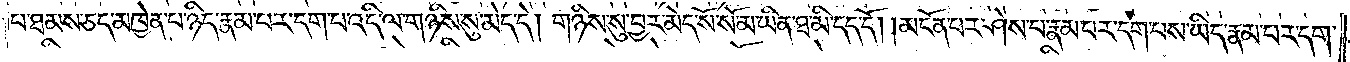པ་ཐམས་ཅད་མཁྱེན་པ་ཉིད་རྣམ་པར་དག་པ་འདི་ལ་གཉིས་སུ་མེད་དེ། གཉིས་སུ་བྱར་མེད་སོ་སོ་མ་ཡིན་ཐ་མི་དད་དོ། །མངོན་པར་ཤེས་པ་རྣམ་པར་དག་པས་ཡིད་རྣམ་པར་དག་
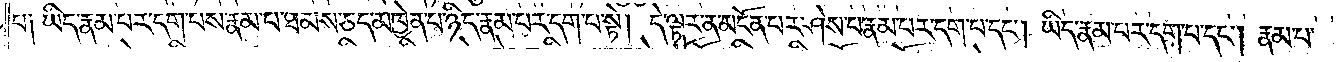པ༑ ཡིད་རྣམ་པར་དག་པས་རྣམ་པ་ཐམས་ཅད་མཁྱེན་པ་ཉིད་རྣམ་པར་དག་པ་སྟེ། དེ་ལྟར་ན་མངོན་པར་ཤེས་པ་རྣམ་པར་དག་པ་དང༌། ཡིད་རྣམ་པར་དག་པ་དང༌། རྣམ་པ་
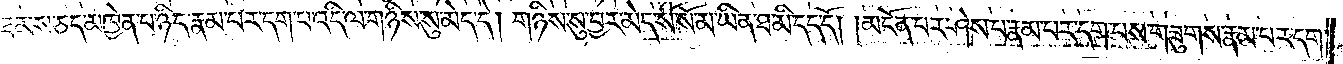ཐམས་ཅད་མཁྱེན་པ་ཉིད་རྣམ་པར་དག་པ་འདི་ལ་གཉིས་སུ་མེད་དེ། གཉིས་སུ་བྱར་མེད་སོ་སོ་མ་ཡིན་ཐ་མི་དད་དོ། །མངོན་པར་ཤེས་པ་རྣམ་པར་དག་པས་གཟུགས་རྣམ་པར་དག་
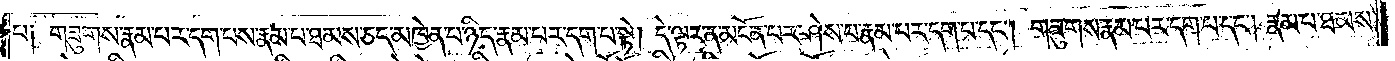པ༑ གཟུགས་རྣམ་པར་དག་པས་རྣམ་པ་ཐམས་ཅད་མཁྱེན་པ་ཉིད་རྣམ་པར་དག་པ་སྟེ། དེ་ལྟར་ན་མངོན་པར་ཤེས་པ་རྣམ་པར་དག་པ་དང༌། གཟུགས་རྣམ་པར་དག་པ་དང༌། རྣམ་པ་ཐམས་
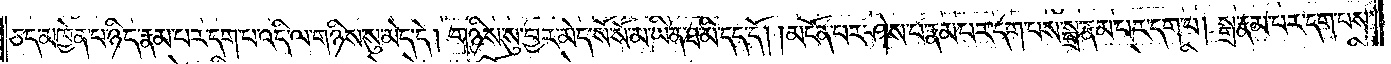ཅད་མཁྱེན་པ་ཉིད་རྣམ་པར་དག་པ་འདི་ལ་གཉིས་སུ་མེད་དེ། གཉིས་སུ་བྱར་མེད་སོ་སོ་མ་ཡིན་ཐ་མི་དད་དོ། །མངོན་པར་ཤེས་པ་རྣམ་པར་དག་པས་སྒྲ་རྣམ་པར་དག་པ། སྒྲ་རྣམ་པར་དག་པས་
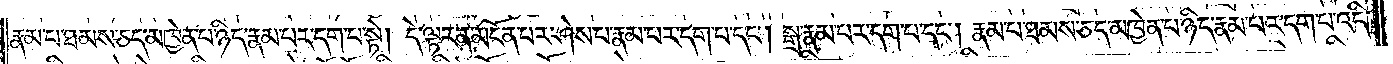རྣམ་པ་ཐམས་ཅད་མཁྱེན་པ་ཉིད་རྣམ་པར་དག་པ་སྟེ། དེ་ལྟར་ན་མངོན་པར་ཤེས་པ་རྣམ་པར་དག་པ་དང༌། སྒྲ་རྣམ་པར་དག་པ་དང༌། རྣམ་པ་ཐམས་ཅད་མཁྱེན་པ་ཉིད་རྣམ་པར་དག་པ་འདི་
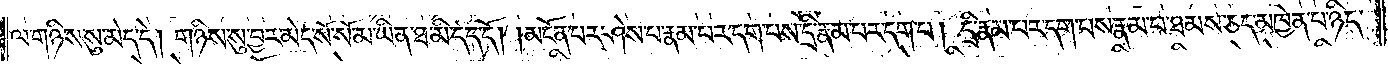ལ་གཉིས་སུ་མེད་དེ། གཉིས་སུ་བྱར་མེད་སོ་སོ་མ་ཡིན་ཐ་མི་དད་དོ། །མངོན་པར་ཤེས་པ་རྣམ་པར་དག་པས་དྲི་རྣམ་པར་དག་པ། དྲི་རྣམ་པར་དག་པས་རྣམ་པ་ཐམས་ཅད་མཁྱེན་པ་ཉིད་
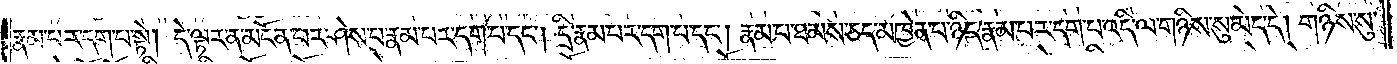རྣམ་པར་དག་པ་སྟེ། དེ་ལྟར་ན་མངོན་པར་ཤེས་པ་རྣམ་པར་དག་པ་དང༌། དྲི་རྣམ་པར་དག་པ་དང༌། རྣམ་པ་ཐམས་ཅད་མཁྱེན་པ་ཉིད་རྣམ་པར་དག་པ་འདི་ལ་གཉིས་སུ་མེད་དེ། གཉིས་སུ་
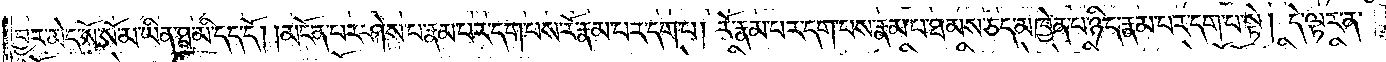བྱར་མེད་སོ་སོ་མ་ཡིན་ཐ་མི་དད་དོ། །མངོན་པར་ཤེས་པ་རྣམ་པར་དག་པས་རོ་རྣམ་པར་དག་པ། རོ་རྣམ་པར་དག་པས་རྣམ་པ་ཐམས་ཅད་མཁྱེན་པ་ཉིད་རྣམ་པར་དག་པ་སྟེ། དེ་ལྟར་ན་
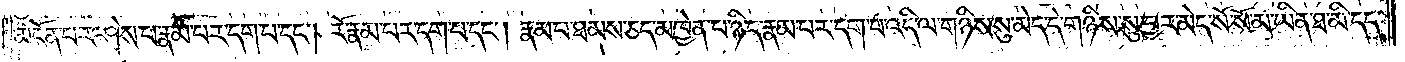མངོན་པར་ཤེས་པ་རྣམ་པར་དག་པ་དང༌། རོ་རྣམ་པར་དག་པ་དང༌། རྣམ་པ་ཐམས་ཅད་མཁྱེན་པ་ཉིད་རྣམ་པར་དག་པ་འདི་ལ་གཉིས་སུ་མེད་དེ་གཉིས་སུ་བྱར་མེད་སོ་སོ་མ་ཡིན་ཐ་མི་དད་
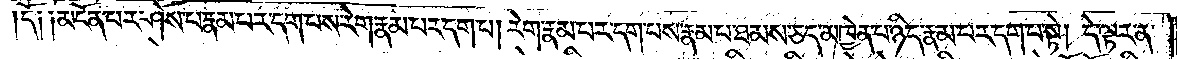དོ༑ ༑མངོན་པར་ཤེས་པ་རྣམ་པར་དག་པས་རེག་རྣམ་པར་དག་པ། རེག་རྣམ་པར་དག་པས་རྣམ་པ་ཐམས་ཅད་མཁྱེན་པ་ཉིད་རྣམ་པར་དག་པ་སྟེ། དེ་ལྟར་ན་
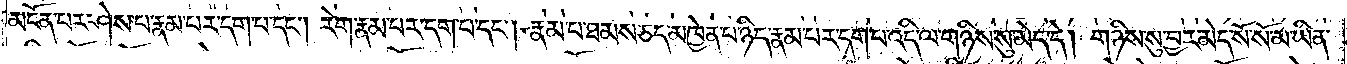མངོན་པར་ཤེས་པ་རྣམ་པར་དག་པ་དང༌། རེག་རྣམ་པར་དག་པ་དང༌། རྣམ་པ་ཐམས་ཅད་མཁྱེན་པ་ཉིད་རྣམ་པར་དག་པ་འདི་ལ་གཉིས་སུ་མེད་དེ། གཉིས་སུ་བྱར་མེད་སོ་སོ་མ་ཡིན་
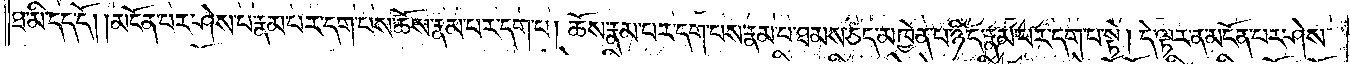ཐ་མི་དད་དོ། །མངོན་པར་ཤེས་པ་རྣམ་པར་དག་པས་ཆོས་རྣམ་པར་དག་པ། ཆོས་རྣམ་པར་དག་པས་རྣམ་པ་ཐམས་ཅད་མཁྱེན་པ་ཉིད་རྣམ་པར་དག་པ་སྟེ། དེ་ལྟར་ན་མངོན་པར་ཤེས་
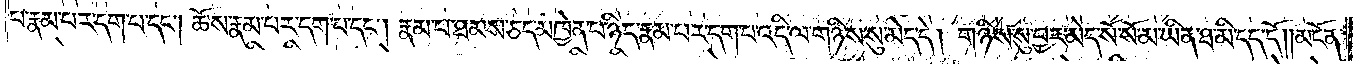པ་རྣམ་པར་དག་པ་དང༌། ཆོས་རྣམ་པར་དག་པ་དང༌། རྣམ་པ་ཐམས་ཅད་མཁྱེན་པ་ཉིད་རྣམ་པར་དག་པ་འདི་ལ་གཉིས་སུ་མེད་དེ། གཉིས་སུ་བྱར་མེད་སོ་སོ་མ་ཡིན་ཐ་མི་དད་དོ། །མངོན་
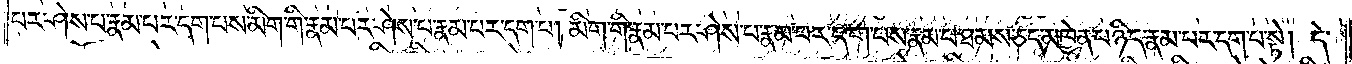པར་ཤེས་པ་རྣམ་པར་དག་པས་མིག་གི་རྣམ་པར་ཤེས་པ་རྣམ་པར་དག་པ། མིག་གི་རྣམ་པར་ཤེས་པ་རྣམ་པར་དག་པས་རྣམ་པ་ཐམས་ཅད་མཁྱེན་པ་ཉིད་རྣམ་པར་དག་པ་སྟེ། དེ་
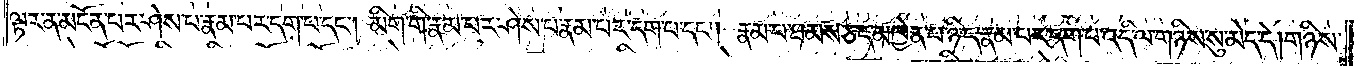ལྟར་ན་མངོན་པར་ཤེས་པ་རྣམ་པར་དག་པ་དང༌། མིག་གི་རྣམ་པར་ཤེས་པ་རྣམ་པར་དག་པ་དང༌། རྣམ་པ་ཐམས་ཅད་མཁྱེན་པ་ཉིད་རྣམ་པར་དག་པ་འདི་ལ་གཉིས་སུ་མེད་དེ། གཉིས་
